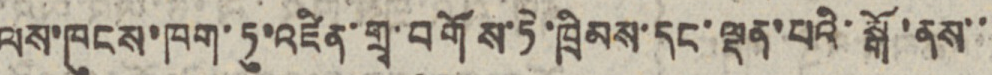ལས་ཁུངས་ཁག་ཏུ་འཛིན་གྲྭ་བགོས་ཏེ་ཁྲིམས་དང་ལྡན་པའི་སྒོ་ནས་་
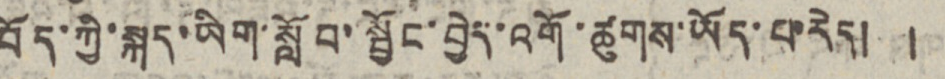བོད་ཀྱི་སྐད་ཡིག་སློབ་སྦྱོང་བྱེད་འགོ་ཚུགས་ཡོད་པ་རེད། །
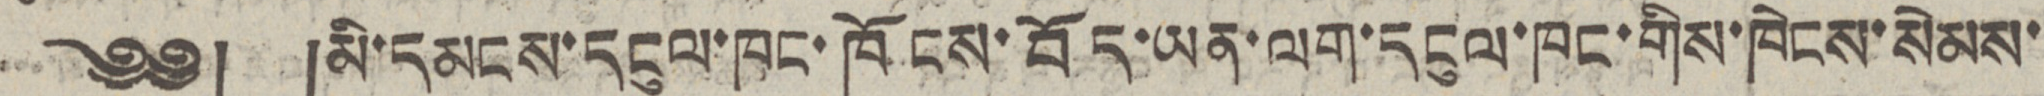༄༅། །མི་དམངས་དངུལ་ཁང་ཁོངས་བོད་ཡན་ལག་དངུལ་ཁང་གིས་ཁེངས་སེམས་
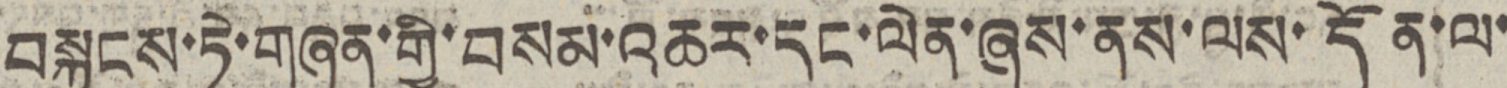བསྐྱུངས་ཏེ་གཞན་གྱི་བསམ་འཆར་དང་ལེན་ཞུས་ནས་ལས་དོན་ལ་
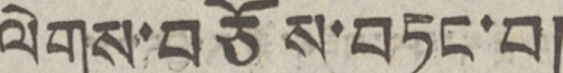ལེགས་བཅོས་བཏང་བ།
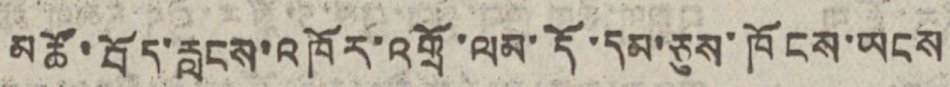མཚོ་བོད་རླངས་འཁོར་འགྲོ་ལམ་དོ་དམ་ཅུས་ཁོངས་ཡངས
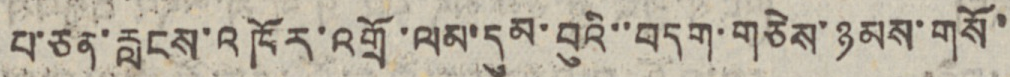པ་ཅན་རླངས་འཁོར་འགྲོ་ལམ་དུམ་བུའི་་བདག་གཅེས་ཉམས་གསོ་
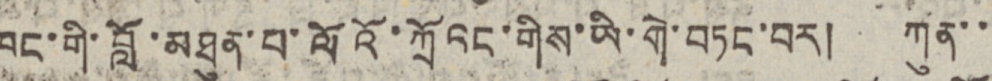ཁང་གི་བློ་མཐུན་པ་ལོའོ་ཀྲོའང་གིས་ཡི་གེ་བཏང་བར། ཀུན་་
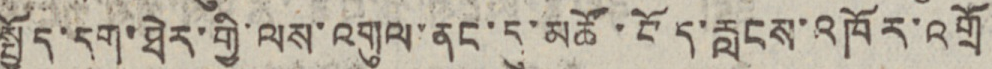སྤྱོད་དག་ཐེར་གྱི་ལས་འགུལ་ནང་དུ་མཚོ་བོད་རླངས་འཁོར་འགྲོ
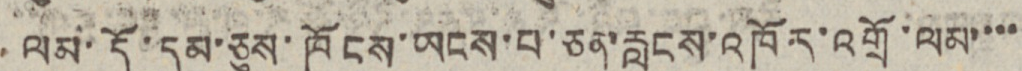ལམ་དོ་དམ་ཅུས་ཁོངས་ཡངས་བ་ཅན་རླངས་འཁོར་འགྲོ་ལམ་་་་
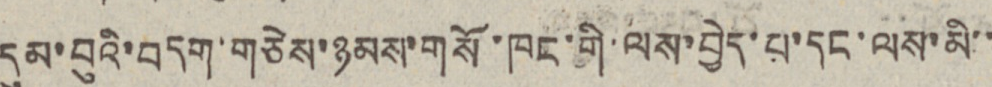དུམ་བུའི་བདག་གཅེས་ཉམས་གསོ་ཁང་གི་ལས་བྱེད་པ་དང་ལས་མི་་
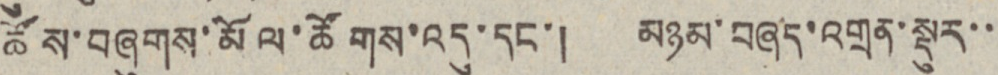ཚོས་བཞུགས་མོལ་ཚོགས་འདུ་དང་། མཉམ་བཞད་འགྲན་སྡུར་་
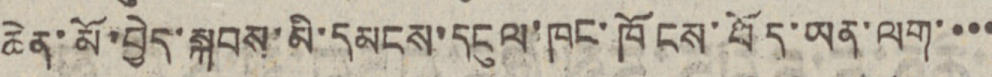ཆེན་མོ་བྱེད་སྐབས་མི་དམངས་དངུལ་ཁང་ཁོངས་བོད་ཡན་ལག་་་་
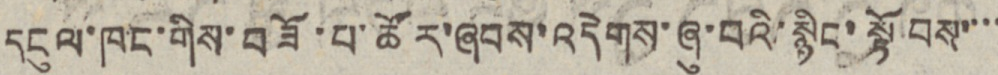དངུལ་ཁང་གིས་བཟོ་པ་ཚོར་ཞབས་འདེགས་ཞུ་བའི་སྙིང་སྟོབས་་་་
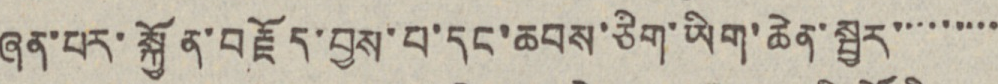ཞན་པར་སྐྱོན་བརྗོད་བྱས་པ་དང་ཆབས་ཅིག་ཡིག་ཆེན་སྦྱར་་་་་་་་་
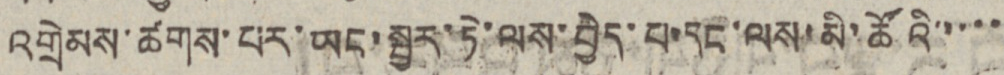འགྲེམས་ཚགས་པར་ཡང་སྦྱར་ཏེ་ལས་བྱེད་པ་དང་ལས་མི་ཚོའི་་་་་
